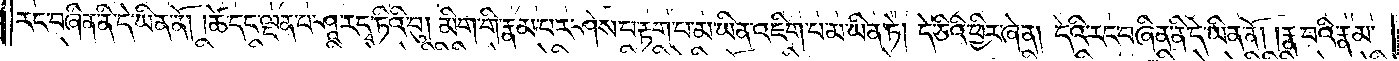རང་བཞིན་ནི་དེ་ཡིན་ནོ། །ཚེ་དང་ལྡན་པ་ཤཱ་ར་དྭ་ཏིའི་བུ། མིག་གི་རྣམ་པར་ཤེས་པ་རྟག་པ་མ་ཡིན་འཇིག་པ་མ་ཡིན་ཏེ། དེ་ཅིའི་ཕྱིར་ཞེ་ན། དེའི་རང་བཞིན་ནི་དེ་ཡིན་ནོ། །རྣ་བའི་རྣམ་
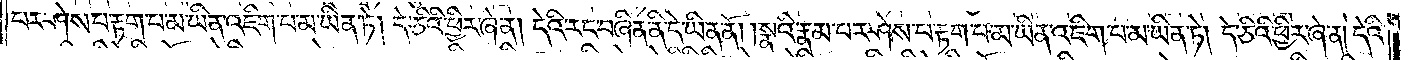པར་ཤེས་པ་རྟག་པ་མ་ཡིན་འཇིག་པ་མ་ཡིན་ཏེ། དེ་ཅིའི་ཕྱིར་ཞེ་ན། དེའི་རང་བཞིན་ནི་དེ་ཡིན་ནོ། །སྣའི་རྣམ་པར་ཤེས་པ་རྟག་པ་མ་ཡིན་འཇིག་པ་མ་ཡིན་ཏེ། དེ་ཅིའི་ཕྱིར་ཞེ་ན། དེའི་
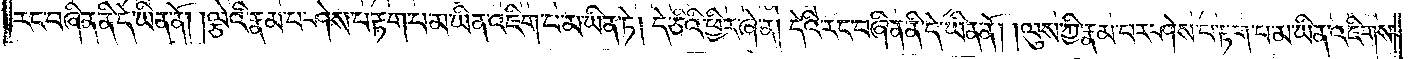རང་བཞིན་ནི་དེ་ཡིན་ནོ། །ལྕེའི་རྣམ་པར་ཤེས་པ་རྟག་པ་མ་ཡིན་འཇིག་པ་མ་ཡིན་ཏེ། དེ་ཅིའི་ཕྱིར་ཞེ་ན། དེའི་རང་བཞིན་ནི་དེ་ཡིན་ནོ། །ལུས་ཀྱི་རྣམ་པར་ཤེས་པ་རྟག་པ་མ་ཡིན་འཇིགས་
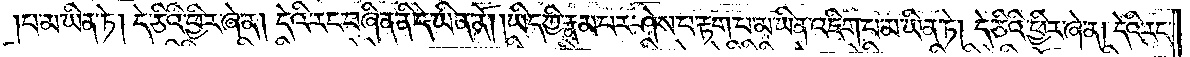པ་མ་ཡིན་ཏེ། དེ་ཅིའི་ཕྱིར་ཞེ་ན། དེའི་རང་བཞིན་ནི་དེ་ཡིན་ནོ། །ཡིད་ཀྱི་རྣམ་པར་ཤེས་པ་རྟག་པ་མ་ཡིན་འཇིག་པ་མ་ཡིན་ཏེ། དེ་ཅིའི་ཕྱིར་ཞེ་ན། དེའི་རང་
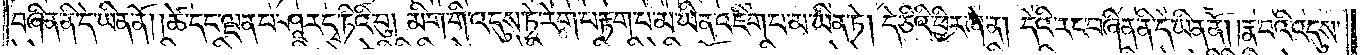བཞིན་ནི་དེ་ཡིན་ནོ། །ཚེ་དང་ལྡན་པ་ཤཱ་ར་དྭ་ཏིའི་བུ། མིག་གི་འདུས་ཏེ་རེག་པ་རྟག་པ་མ་ཡིན་འཇིག་པ་མ་ཡིན་ཏེ། དེ་ཅིའི་ཕྱིར་ཞེ་ན། དེའི་རང་བཞིན་ནི་དེ་ཡིན་ནོ། །རྣ་བའི་འདུས་
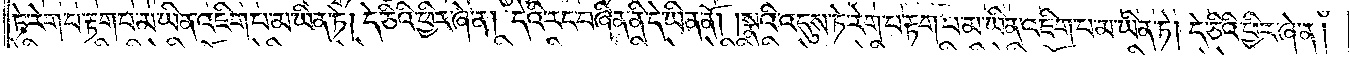ཏེ་རེག་པ་རྟག་པ་མ་ཡིན་འཇིག་པ་མ་ཡིན་ཏེ། དེ་ཅིའི་ཕྱིར་ཞེ་ན། དེའི་རང་བཞིན་ནི་དེ་ཡིན་ནོ། །སྣའི་འདུས་ཏེ་རེག་པ་རྟག་པ་མ་ཡིན་འཇིག་པ་མ་ཡིན་ཏེ། དེ་ཅིའི་ཕྱིར་ཞེ་ན།
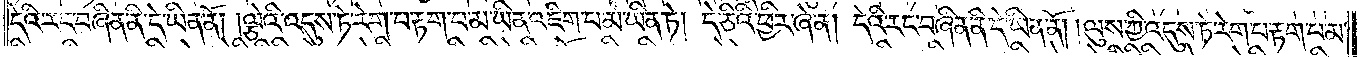དེའི་རང་བཞིན་ནི་དེ་ཡིན་ནོ། ལྕེའི་འདུས་ཏེ་རེག་པ་རྟག་པ་མ་ཡིན་འཇིག་པ་མ་ཡིན་ཏེ། དེ་ཅིའི་ཕྱིར་ཞེ་ན། དེའི་རང་བཞིན་ནི་དེ་ཡིན་ནོ། །ལུས་ཀྱི་འདུས་ཏེ་རེག་པ་རྟག་པ་མ་
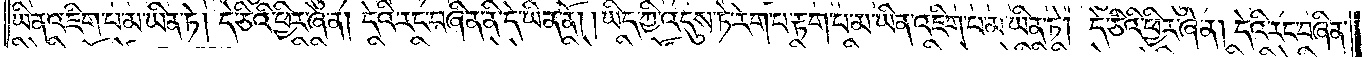ཡིན་འཇིག་པ་མ་ཡིན་ཏེ། དེ་ཅིའི་ཕྱིར་ཞེ་ན། དེའི་རང་བཞིན་ནི་དེ་ཡིན་ནོ། །ཡིད་ཀྱི་འདུས་ཏེ་རེག་པ་རྟག་པ་མ་ཡིན་འཇིག་པ་མ་ཡིན་ཏེ། དེ་ཅིའི་ཕྱིར་ཞེ་ན། དེའི་རང་བཞིན་
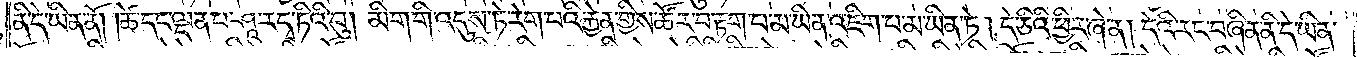ནི་དེ་ཡིན་ནོ། །ཚེ་དང་ལྡན་པ་ཤཱ་ར་དྭ་ཏིའི་བུ། མིག་གི་འདུས་ཏེ་རེག་པའི་རྐྱེན་གྱིས་ཚོར་བ་རྟག་པ་མ་ཡིན་འཇིག་པ་མ་ཡིན་ཏེ། དེ་ཅིའི་ཕྱིར་ཞེ་ན། དེའི་རང་བཞིན་ནི་དེ་ཡིན་
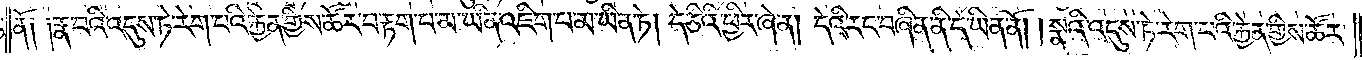ནོ༑ ༑རྣ་བའི་འདུས་ཏེ་རེག་པའི་རྐྱེན་གྱིས་ཚོར་བ་རྟག་པ་མ་ཡིན་འཇིག་པ་མ་ཡིན་ཏེ། དེ་ཅིའི་ཕྱིར་ཞེ་ན། དེའི་རང་བཞིན་ནི་དེ་ཡིན་ནོ། །སྣའི་འདུས་ཏེ་རེག་པའི་རྐྱེན་གྱིས་ཚོར་
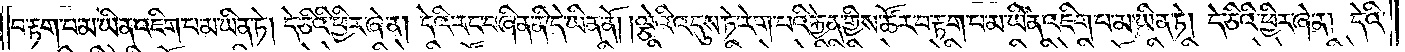བ་རྟག་པ་མ་ཡིན་འཇིག་པ་མ་ཡིན་ཏེ། དེ་ཅིའི་ཕྱིར་ཞེ་ན། དེའི་རང་བཞིན་ནི་དེ་ཡིན་ནོ། །ལྕེའི་འདུས་ཏེ་རེག་པའི་རྐྱེན་གྱིས་ཚོར་བ་རྟག་པ་མ་ཡིན་འཇིག་པ་མ་ཡིན་ཏེ། དེ་ཅིའི་ཕྱིར་ཞེ་ན། དེའི་
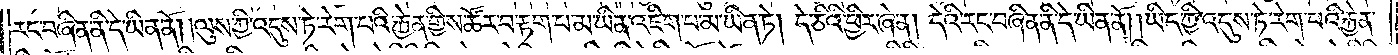རང་བཞིན་ནི་དེ་ཡིན་ནོ། །ལུས་ཀྱི་འདུས་ཏེ་རེག་པའི་རྐྱེན་གྱིས་ཚོར་བ་རྟག་པ་མ་ཡིན་འཇིག་པ་མ་ཡིན་ཏེ། དེ་ཅིའི་ཕྱིར་ཞེ་ན། དེའི་རང་བཞིན་ནི་དེ་ཡིན་ནོ། །ཡིད་ཀྱི་འདུས་ཏེ་རེག་པའི་རྐྱེན་
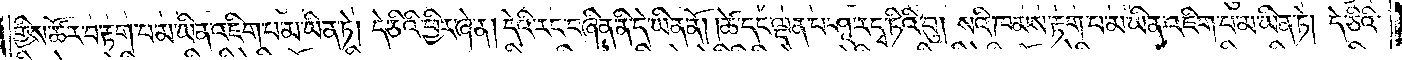གྱིས་ཚོར་བ་རྟག་པ་མ་ཡིན་འཇིག་པ་མ་ཡིན་ཏེ། དེ་ཅིའི་ཕྱིར་ཞེ་ན། དེའི་རང་བཞིན་ནི་དེ་ཡིན་ནོ། །ཚེ་དང་ལྡན་པ་ཤཱ་ར་དྭ་ཏིའི་བུ། སའི་ཁམས་རྟག་པ་མ་ཡིན་འཇིག་པ་མ་ཡིན་ཏེ། དེ་ཅིའི་
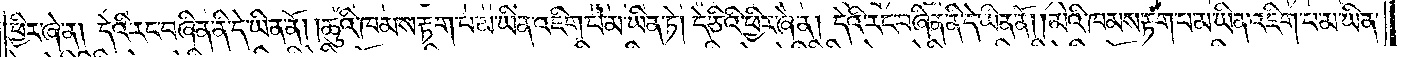ཕྱིར་ཞེ་ན། དེའི་རང་བཞིན་ནི་དེ་ཡིན་ནོ། །ཆུའི་ཁམས་རྟག་པ་མ་ཡིན་འཇིག་པ་མ་ཡིན་ཏེ། དེ་ཅིའི་ཕྱིར་ཞེ་ན། དེའི་རང་བཞིན་ནི་དེ་ཡིན་ནོ། །མེའི་ཁམས་རྟག་པ་མ་ཡིན་འཇིག་པ་མ་ཡིན་
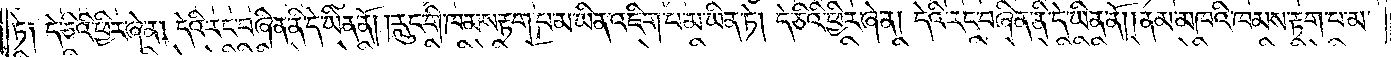ཏེ༑ དེ་ཅིའི་ཕྱིར་ཞེ་ན། དེའི་རང་བཞིན་ནི་དེ་ཡིན་ནོ། །རླུང་གི་ཁམས་རྟག་པ་མ་ཡིན་འཇིག་པ་མ་ཡིན་ཏེ། དེ་ཅིའི་ཕྱིར་ཞེ་ན། དེའི་རང་བཞིན་ནི་དེ་ཡིན་ནོ། །ནམ་མཁའི་ཁམས་རྟག་པ་མ་
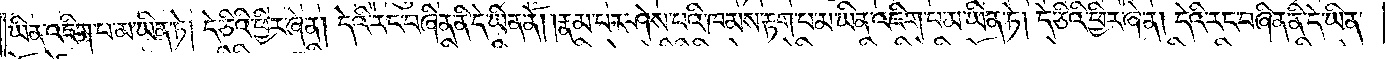ཡིན་འཇིག་པ་མ་ཡིན་ཏེ། དེ་ཅིའི་ཕྱིར་ཞེ་ན། དེའི་རང་བཞིན་ནི་དེ་ཡིན་ནོ། །རྣམ་པར་ཤེས་པའི་ཁམས་རྟག་པ་མ་ཡིན་འཇིག་པ་མ་ཡིན་ཏེ། དེ་ཅིའི་ཕྱིར་ཞེ་ན། དེའི་རང་བཞིན་ནི་དེ་ཡིན་
